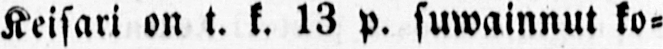Keisari on t. k. 13 p. suwainnut ko-
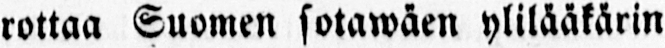rottaa Suomen sotawäen ylilääkärin
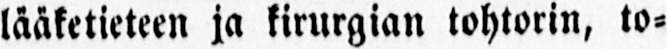lääketieteen ja kirurgian tohtorin, to-
